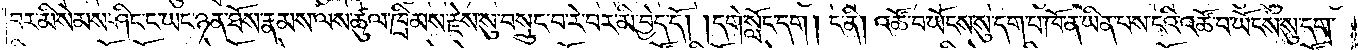བར་མི་སེམས་ཤིང་ང་ཡང་ཉན་ཐོས་རྣམས་ལས་ཚུལ་ཁྲིམས་རྗེས་སུ་བསྲུང་བ་རེ་བར་མི་བྱེད་དོ། །དགེ་སློང་དག །ང་ནི། འཚོ་བ་ཡོངས་སུ་དག་པ་ཁོ་ན་ཡིན་པས་ངའི་འཚོ་བ་ཡོངས་སུ་དག་
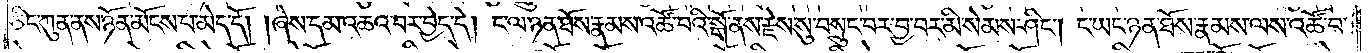ཅིང་ཀུན་ནས་ཉོན་མོངས་པ་མེད་དོ། །ཞེས་དམ་འཆའ་བར་བྱེད་དེ། ང་ལ་ཉན་ཐོས་རྣམས་འཚོ་བའི་སྒོ་ནས་རྗེས་སུ་བསྲུང་བར་བྱ་བར་མི་སེམས་ཤིང༌། ང་ཡང་ཉན་ཐོས་རྣམས་ལས་འཚོ་བ་
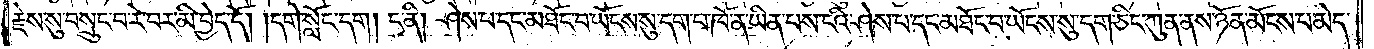རྗེས་སུ་བསྲུང་བ་རེ་བར་མི་བྱེད་དོ། །དགེ་སློང་དག །ང་ནི། ཤེས་པ་དང་མཐོང་བ་ཡོངས་སུ་དག་པ་ཁོ་ན་ཡིན་པས་ངའི་ཤེས་པ་དང་མཐོང་བ་ཡོངས་སུ་དག་ཅིང་ཀུན་ནས་ཉོན་མོངས་པ་མེད་
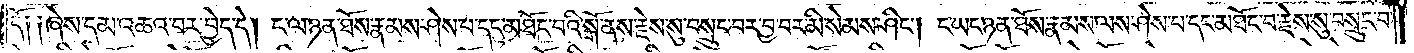དོ༑ ༑ཞེས་དམ་འཆའ་བར་བྱེད་དེ། ང་ལ་ཉན་ཐོས་རྣམས་ཤེས་པ་དང་མཐོང་བའི་སྒོ་ནས་རྗེས་སུ་བསྲུང་བར་བྱ་བར་མི་སེམས་ཤིང༌། ང་ཡང་ཉན་ཐོས་རྣམས་ལས་ཤེས་པ་དང་མཐོང་བ་རྗེས་སུ་བསྲུང་བ་
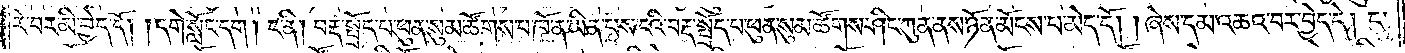རེ་བར་མི་བྱེད་དོ། །དགེ་སློང་དག །ང་ནི། བརྡ་སྤྲོད་པ་ཕུན་སུམ་ཚོགས་པ་ཁོ་ན་ཡིན་པས་ངའི་བརྡ་སྤྲོད་པ་ཕུན་སུམ་ཚོགས་ཤིང་ཀུན་ནས་ཉོན་མོངས་པ་མེད་དོ། །ཞེས་དམ་འཆའ་བར་བྱེད་དེ། ང་
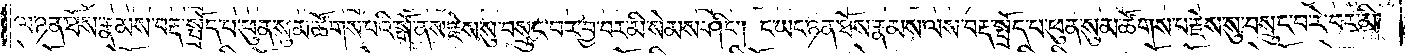ལ་ཉན་ཐོས་རྣམས་བརྡ་སྤྲོད་པ་ཕུན་སུམ་ཚོགས་པའི་སྒོ་ནས་རྗེས་སུ་བསྲུང་བར་བྱ་བར་མི་སེམས་ཤིང༌། ང་ཡང་ཉན་ཐོས་རྣམས་ལས་བརྡ་སྤྲོད་པ་ཕུན་སུམ་ཚོགས་པ་རྗེས་སུ་བསྲུང་བ་རེ་བར་མི་
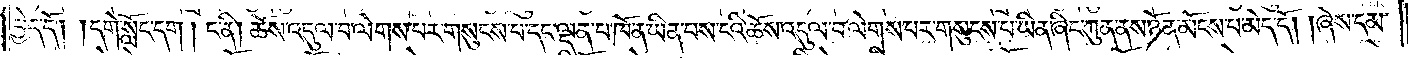བྱེད་དོ། །དགེ་སློང་དག །ང་ནི། ཆོས་འདུལ་བ་ལེགས་པར་གསུངས་པ་དང་ལྡན་པ་ཁོ་ན་ཡིན་པས་ངའི་ཆོས་འདུལ་བ་ལེགས་པར་གསུངས་པ་ཡིན་ཞིང་ཀུན་ནས་ཉོན་མོངས་པ་མེད་དོ། །ཞེས་དམ་
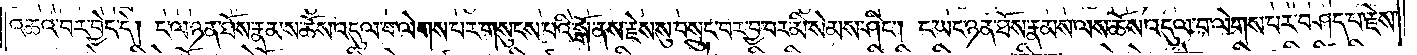འཆའ་བར་བྱེད་དེ། ང་ལ་ཉན་ཐོས་རྣམས་ཆོས་འདུལ་བ་ལེགས་པར་གསུངས་པའི་སྒོ་ནས་རྗེས་སུ་བསྲུང་བར་བྱ་བར་མི་སེམས་ཤིང༌། ང་ཡང་ཉན་ཐོས་རྣམས་ལས་ཆོས་འདུལ་བ་ལེགས་པར་བཤད་པ་རྗེས་
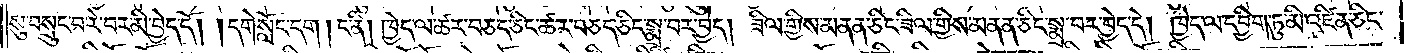སུ་བསྲུང་བ་རེ་བར་མི་བྱེད་དོ། །དགེ་སློང་དག །ང་ནི། ཁྱེད་ལ་ཚར་བཅད་ཅིང་ཚར་བཅད་ཅིང་སྨྲ་བར་བྱེད། ཟིལ་གྱིས་མནན་ཅིང་ཟིལ་གྱིས་མནན་ཅིང་སྨྲ་བར་བྱེད་དེ། ཁྱེད་ལ་དབྱིག་ཏུ་མི་འཛིན་ཅིང་
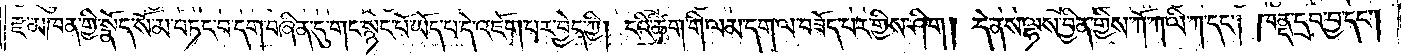རྫ་མཁན་གྱི་སྣོད་སོམ་བཏང་བ་དག་བཞིན་དུ་གང་སྙིང་པོ་ཡོད་པ་དེ་འཇོག་པར་བྱེད་ཀྱི། ངའི་ཚིག་གི་ལམ་དག་ལ་བཟོད་པར་གྱིས་ཤིག། དེ་ནས་ལྷས་བྱིན་གྱིས་ཀོ་ཀ་ལི་ཀ་དང༌། ཁནྡ་དྲབ་བྱ་དང༌།
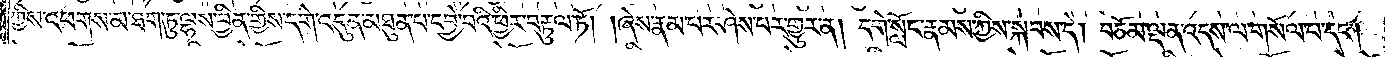ཀྱིས་འཕགས་མ་ཐག་ཏུ་ལྷས་བྱིན་གྱིས་དགེ་འདུན་མཐུན་པ་དབྱེ་བའི་ཕྱིར་བརྟུལ་ཏོ། །ཞེས་རྣམ་པར་ཤེས་པར་གྱུར་ན། དགེ་སློང་རྣམས་ཀྱིས་སྐབས་དེ། བཅོམ་ལྡན་འདས་ལ་གསོལ་པ་དང༌།
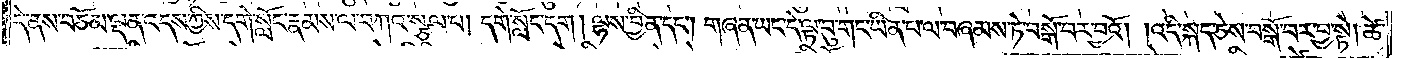དེ་ནས་བཅོམ་ལྡན་འདས་ཀྱིས་དགེ་སློང་རྣམས་ལ་བཀའ་སྩལ་པ། དགེ་སློང་དག །ལྷས་བྱིན་དང༌། གཞན་ཡང་དེ་ལྟ་བུ་གང་ཡིན་པ་ལ་བཞམས་ཏེ་བསྒོ་བར་བྱའོ། །འདི་སྐད་ཅེས་བསྒོ་བར་བྱ་སྟེ། ཚེ་
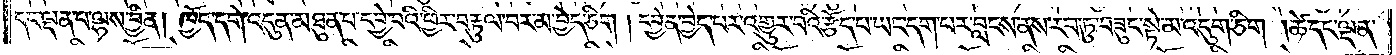དང་ལྡན་པ་ལྷས་བྱིན། ཁྱོད་དགེ་འདུན་མཐུན་པ་དབྱེ་བའི་ཕྱིར་བརྟུལ་པར་མ་བྱེད་ཅིག །དབྱེན་བྱེད་པར་འགྱུར་བའི་རྩོད་པ་ཡང་དག་པར་བླངས་ནས་རབ་ཏུ་བཟུང་སྟེ་མ་འདུག་ཅིག །ཚེ་དང་ལྡན་
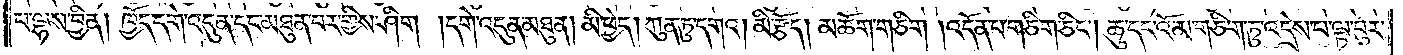པ་ལྷས་བྱིན། ཁྱོད་དགེ་འདུན་དང་མཐུན་པར་གྱིས་ཤིག །དགེ་འདུན་མཐུན། མི་བྱེད། ཀུན་ཏུ་དགའ། མི་རྩོད། མཆོག་གཅིག །འདོན་པ་གཅིག་ཅིང༌། ཆུ་དང་འོ་མ་གཅིག་ཏུ་འདྲེས་པ་ལྟ་བུར་
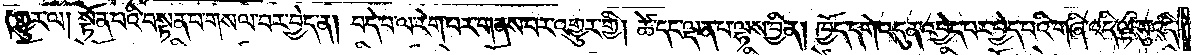གྱུར་ལ། སྟོན་པའི་བསྟན་པ་གསལ་བར་བྱེད་ན། བདེ་བ་ལ་རེག་པར་གནས་པར་འགྱུར་གྱི། ཚེ་དང་ལྡན་པ་ལྷས་བྱིན། ཁྱོད་དགེ་འདུན་འབྱེད་པར་བྱེད་པའི་གཞི་འདི་ལྟ་བུ་འདི་
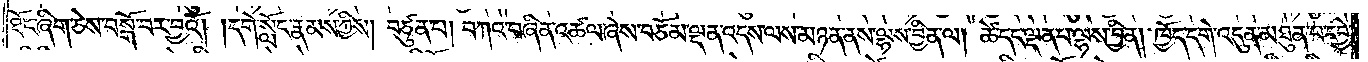ཐོང་ཞིག་ཅེས་བསྒོ་བར་བྱའོ། །དགེ་སློང་རྣམས་ཀྱིས། བཙུན་པ། བཀའ་བཞིན་འཚལ་ཞེས་བཅོམ་ལྡན་འདས་ལས་མཉན་ནས་ལྷས་བྱིན་ལ། ཚེ་དང་ལྡན་པ་ལྷས་བྱིན། ཁྱོད་དགེ་འདུན་མཐུན་པ་དབྱེ་
